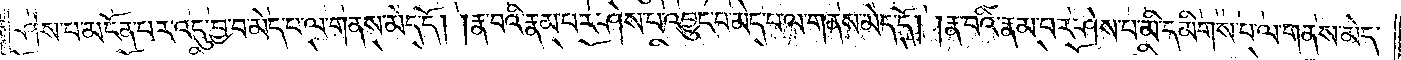ཤེས་པ་མངོན་པར་འདུ་བྱ་བ་མེད་པ་ལ་གནས་མེད་དོ། །རྣ་བའི་རྣམ་པར་ཤེས་པ་འབྱུང་བ་མེད་པ་ལ་གནས་མེད་དོ། །རྣ་བའི་རྣམ་པར་ཤེས་པ་མི་དམིགས་པ་ལ་གནས་མེད་
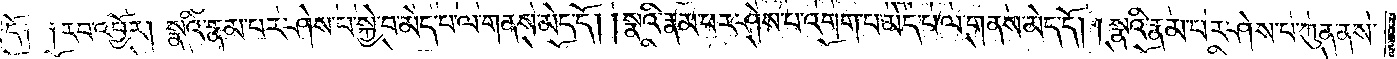དོ༑ ༑རབ་འབྱོར། སྣའི་རྣམ་པར་ཤེས་པ་སྐྱེ་བ་མེད་པ་ལ་གནས་མེད་དོ། །སྣའི་རྣམ་པར་ཤེས་པ་འགག་པ་མེད་པ་ལ་གནས་མེད་དོ། །སྣའི་རྣམ་པར་ཤེས་པ་ཀུན་ནས་
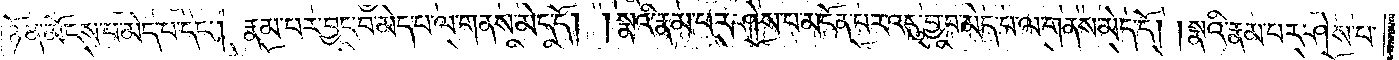ཉོན་མོངས་པ་མེད་པ་དང༌། རྣམ་པར་བྱང་བ་མེད་པ་ལ་གནས་མེད་དོ། །སྣའི་རྣམ་པར་ཤེས་པ་མངོན་པར་འདུ་བྱ་བ་མེད་བ་ལ་གནས་མེད་དོ། །སྣའི་རྣམ་པར་ཤེས་པ་
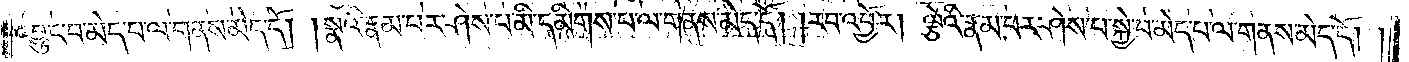འབྱུང་བ་མེད་པ་ལ་གནས་མེད་དོ། །སྣའི་རྣམ་པར་ཤེས་པ་མི་དམིགས་པ་ལ་གནས་མེད་དོ། །རབ་འབྱོར། ལྕེའི་རྣམ་པར་ཤེས་པ་སྐྱེ་བ་མེད་པ་ལ་གནས་མེད་དོ། །
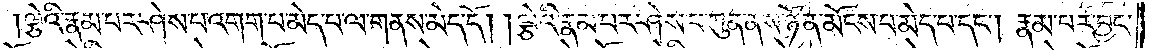ལྕེའི་རྣམ་པར་ཤེས་པ་འགག་པ་མེད་པ་ལ་གནས་མེད་དོ། །ལྕེའི་རྣམ་པར་ཤེས་པ་ཀུན་ནས་ཉོན་མོངས་པ་མེད་པ་དང༌། རྣམ་པར་བྱང་
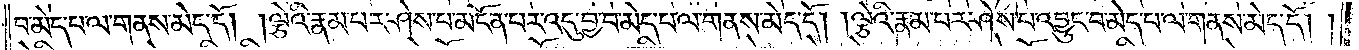བ་མེད་པ་ལ་གནས་མེད་དོ། །ལྕེའི་རྣམ་པར་ཤེས་པ་མངོན་པར་འདུ་བྱ་བ་མེད་པ་ལ་གནས་མེད་དོ། །ལྕེའི་རྣམ་པར་ཤེས་པ་འབྱུང་བ་མེད་པ་ལ་གནས་མེད་དོ། །
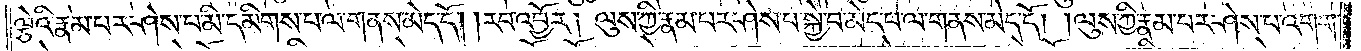ལྕེའི་རྣམ་པར་ཤེས་པ་མི་དམིགས་པ་ལ་གནས་མེད་དོ། །རབ་འབྱོར། ལུས་ཀྱི་རྣམ་པར་ཤེས་པ་སྐྱེ་བ་མེད་པ་ལ་གནས་མེད་དོ། །ལུས་ཀྱི་རྣམ་པར་ཤེས་པ་འགག་
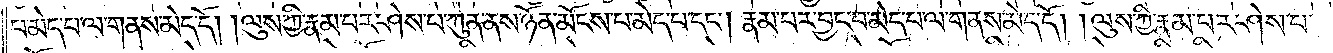པ་མེད་པ་ལ་གནས་མེད་དོ། །ལུས་ཀྱི་རྣམ་པར་ཤེས་པ་ཀུན་ནས་ཉོན་མོངས་པ་མེད་པ་དང༌། རྣམ་པར་བྱང་བ་མེད་པ་ལ་གནས་མེད་དོ། །ལུས་ཀྱི་རྣམ་པར་ཤེས་པ་
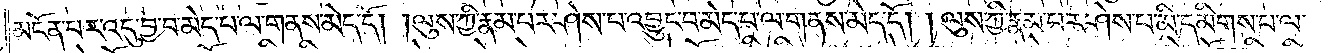མངོན་པར་འདུ་བྱ་བ་མེད་པ་ལ་གནས་མེད་དོ། །ལུས་ཀྱི་རྣམ་པར་ཤེས་པ་འབྱུང་བ་མེད་པ་ལ་གནས་མེད་དོ། །ལུས་ཀྱི་རྣམ་པར་ཤེས་པ་མི་དམིགས་པ་ལ་
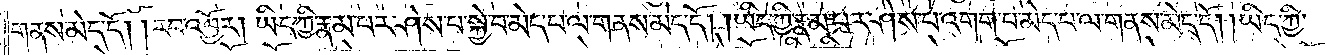གནས་མེད་དོ། །རབ་འབྱོར། ཡིད་ཀྱི་རྣམ་པར་ཤེས་པ་སྐྱེ་བ་མེད་པ་ལ་གནས་མེད་དོ། ཡིད་ཀྱི་རྣམ་པར་ཤེས་པ་འགག་པ་མེད་པ་ལ་གནས་མེད་དོ། །ཡིད་ཀྱི་
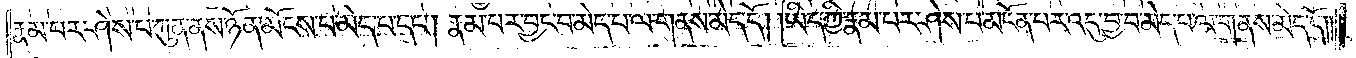རྣམ་པར་ཤེས་པ་ཀུན་ནས་ཉོན་མོངས་པ་མེད་པ་དང༌། རྣམ་པར་བྱང་བ་མེད་པ་ལ་གནས་མེད་དོ། །ཡིད་ཀྱི་རྣམ་པར་ཤེས་པ་མངོན་པར་འདུ་བྱ་བ་མེད་པ་ལ་གནས་མེད་དོ༎
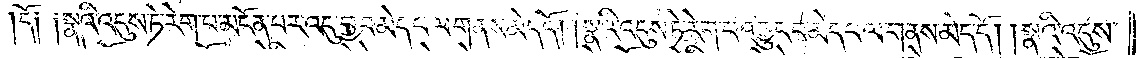དོ༑ ༑སྣའི་འདུས་ཏེ་རེག་པ་མངོན་པར་འདུ་བྱ་བ་མེད་པ་ལ་གནས་མེད་དོ། །སྣའི་འདུས་ཏེ་རེག་པ་འབྱུང་བ་མེད་པ་ལ་གནས་མེད་དོ། །སྣའི་འདུས་
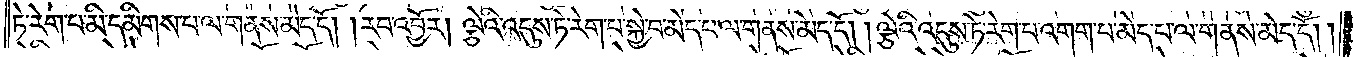ཏེ་རེག་པ་མི་དམིགས་པ་ལ་གནས་མེད་དོ། །རབ་འབྱོར། ལྕེའི་འདུས་ཏེ་རེག་པ་སྐྱེ་བ་མེད་པ་ལ་གནས་མེད་དོ། །ལྕེའི་འདུས་ཏེ་རེག་པ་འགག་པ་མེད་པ་ལ་གནས་མེད་དོ། །
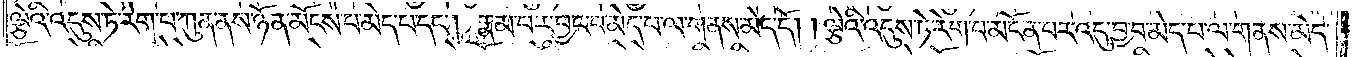ལྕེའི་འདུས་ཏེ་རེག་པ་ཀུན་ནས་ཉོན་མོངས་པ་མེད་པ་དང༌། རྣམ་པར་བྱང་བ་མེད་པ་ལ་གནས་མེད་དོ། །ལྕེའི་འདུས་ཏེ་རེག་པ་མངོན་པར་འདུ་བྱ་བ་མེད་པ་ལ་གནས་མེད་
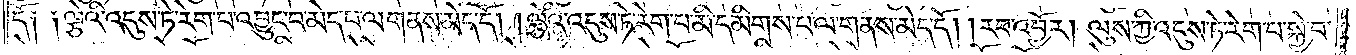དོ༑ ༑ལྕེའི་འདུས་ཏེ་རེག་པ་འབྱུང་བ་མེད་པ་ལ་གནས་མེད་དོ། །ལྕེའི་འདུས་ཏེ་རེག་པ་མི་དམིགས་པ་ལ་གནས་མེད་དོ། །རབ་འབྱོར། ལུས་ཀྱི་འདུས་ཏེ་རེག་པ་སྐྱེ་བ་
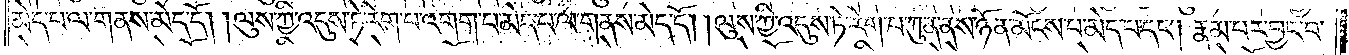མེད་པ་ལ་གནས་མེད་དོ། །ལུས་ཀྱི་འདུས་ཏེ་རེག་པ་འགག་པ་མེད་པ་ལ་གནས་མེད་དོ། །ལུས་ཀྱི་འདུས་ཏེ་རེག་པ་ཀུན་ནས་ཉོན་མོངས་པ་མེད་པ་དང༌། རྣམ་པར་བྱང་བ་
